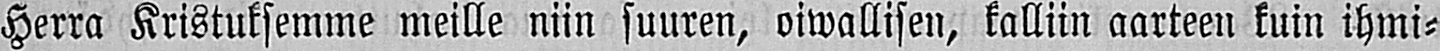Herra Kristuksemme meille niin suuren, oiwallisen, kalliin aarteen kuin ihmi-
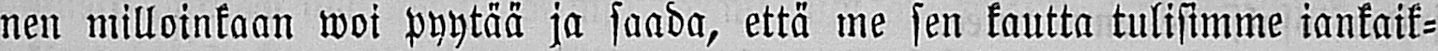nen milloinkaan woi pyytää ja saada, että me sen kautta tulisimme iankaik-
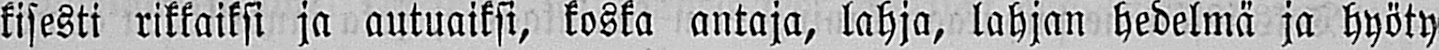kisesti rikkaiksi ja autuaiksi, koska antaja, lahja, lahjan hedelmä ja hyöty
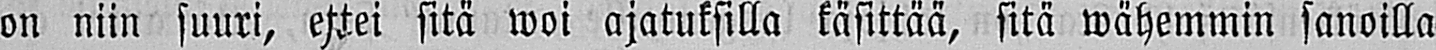on niin suuri, ettei sitä woi ajatuksilla käsittää, sitä wähemmin sanoilla
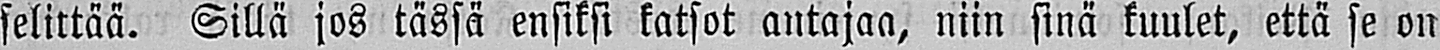selittää. Sillä jos tässä ensiksi katsot antajaa, niin sinä kuulet, että se on
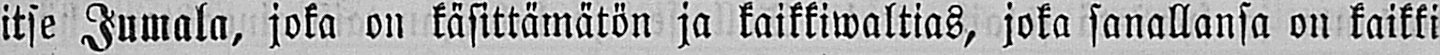itse Jumala, joka on käsittämätön ja kaikkiwaltias, joka sanallansa on kaikki
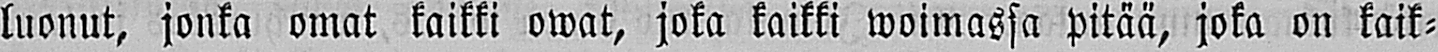luonut, jonka omat kaikki owat, joka kaikki woimassa pitää, joka on kaik-
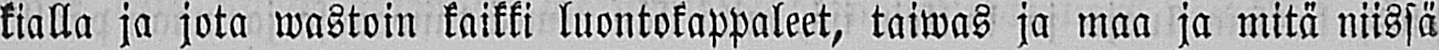kialla ja jota wastoin kaikki luontokappaleet, taiwas ja maa ja mitä niissä
